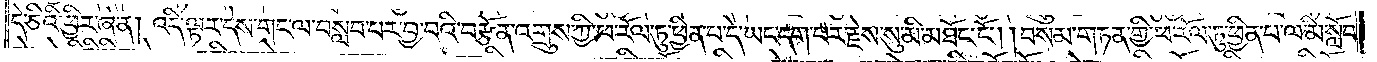དེ་ཅིའི་ཕྱིར་ཞེ་ན། འདི་ལྟར་དེས་གང་ལ་བསླབ་པར་བྱ་བའི་བརྩོན་འགྲུས་ཀྱི་ཕ་རོལ་ཏུ་ཕྱིན་པ་དེ་ཡང་དག་པར་རྗེས་སུ་མི་མཐོང་ངོ༌། །བསམ་གཏན་གྱི་ཕ་རོལ་ཏུ་ཕྱིན་པ་ལ་མི་སློབ་
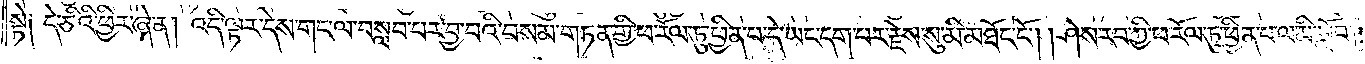སྟེ༑ དེ་ཅིའི་ཕྱིར་ཞེ་ན། འདི་ལྟར་དེས་གང་ལ་བསླབ་པར་བྱ་བའི་བསམ་གཏན་གྱི་ཕ་རོལ་ཏུ་ཕྱིན་པ་དེ་ཡང་དག་པར་རྗེས་སུ་མི་མཐོང་ངོ༌། །ཤེས་རབ་ཀྱི་ཕ་རོལ་ཏུ་ཕྱིན་པ་ལ་མི་སློབ་
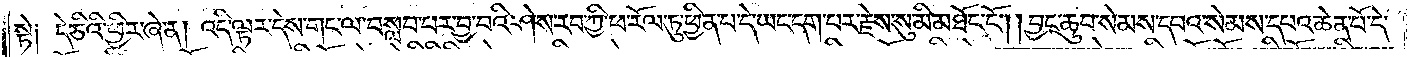སྟེ། དེ་ཅིའི་ཕྱིར་ཞེ་ན། འདི་ལྟར་དེས་གང་ལ་བསླབ་པར་བྱ་བའི་ཤེས་རབ་ཀྱི་ཕ་རོལ་ཏུ་ཕྱིན་པ་དེ་ཡང་དག་པར་རྗེས་སུ་མི་མཐོང་ངོ༌། །བྱང་ཆུབ་སེམས་དཔའ་སེམས་དཔའ་ཆེན་པོ་དེ་
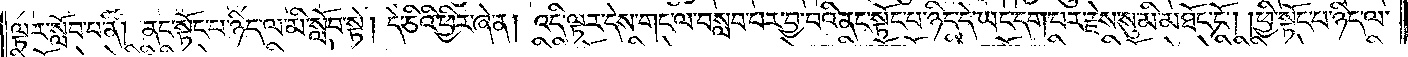ལྟར་སློབ་པ་ནི། ནང་སྟོང་པ་ཉིད་ལ་མི་སློབ་སྟེ། དེ་ཅིའི་ཕྱིར་ཞེ་ན། འདི་ལྟར་དེས་གང་ལ་བསླབ་པར་བྱ་བའི་ནང་སྟོང་པ་ཉིད་དེ་ཡང་དག་པར་རྗེས་སུ་མི་མཐོང་ངོ༌། །ཕྱི་སྟོང་པ་ཉིད་ལ་
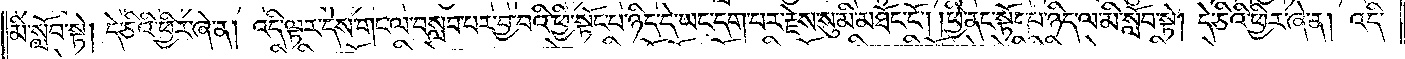མི་སློབ་སྟེ། དེ་ཅིའི་ཕྱིར་ཞེ་ན། འདི་ལྟར་དེས་གང་ལ་བསླབ་པར་བྱ་བའི་ཕྱི་སྟོང་པ་ཉིད་དེ་ཡང་དག་པར་རྗེས་སུ་མི་མཐོང་ངོ༌། །ཕྱི་ནང་སྟོང་པ་ཉིད་ལ་མི་སློབ་སྟེ། དེ་ཅིའི་ཕྱིར་ཞེ་ན། འདི་
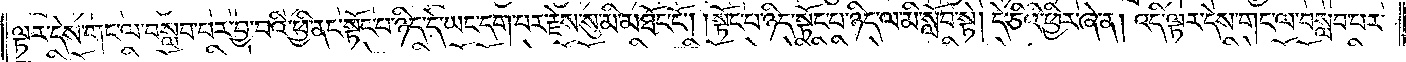ལྟར་དེས་གང་ལ་བསླབ་པར་བྱ་བའི་ཕྱི་ནང་སྟོང་པ་ཉིད་དེ་ཡང་དག་པར་རྗེས་སུ་མི་མཐོང་ངོ༌། །སྟོང་པ་ཉིད་སྟོང་པ་ཉིད་ལ་མི་སློབ་སྟེ། དེ་ཅིའི་ཕྱིར་ཞེ་ན། འདི་ལྟར་དེས་གང་ལ་བསླབ་པར་
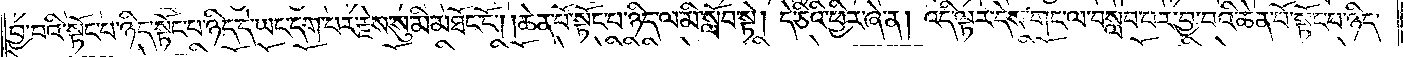བྱ་བའི་སྟོང་པ་ཉིད་སྟོང་པ་ཉིད་དེ་ཡང་དག་པར་རྗེས་སུ་མི་མཐོང་ངོ༌། །ཆེན་པོ་སྟོང་པ་ཉིད་ལ་མི་སློབ་སྟེ། དེ་ཅིའི་ཕྱིར་ཞེ་ན། འདི་ལྟར་དེས་གང་ལ་བསླབ་པར་བྱ་བའི་ཆེན་པོ་སྟོང་པ་ཉིད་
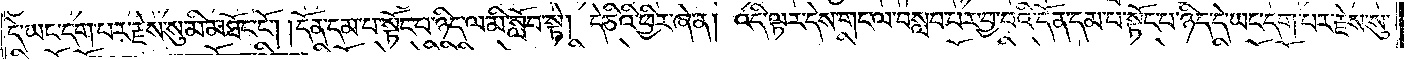དེ་ཡང་དག་པར་རྗེས་སུ་མི་མཐོང་ངོ༌། །དོན་དམ་པ་སྟོང་པ་ཉིད་ལ་མི་སློབ་སྟེ། དེ་ཅིའི་ཕྱིར་ཞེ་ན། འདི་ལྟར་དེས་གང་ལ་བསླབ་པར་བྱ་བའི་དོན་དམ་པ་སྟོང་པ་ཉིད་དེ་ཡང་དག་པར་རྗེས་སུ་
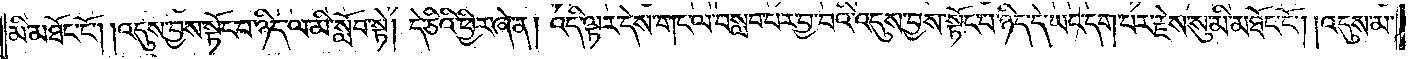མི་མཐོང་ངོ༌། །འདུས་བྱས་སྟོང་པ་ཉིད་ལ་མི་སློབ་སྟེ། དེ་ཅིའི་ཕྱིར་ཞེ་ན། འདི་ལྟར་དེས་གང་ལ་བསླབ་པར་བྱ་བའི་འདུས་བྱས་སྟོང་པ་ཉིད་དེ་ཡང་དག་པར་རྗེས་སུ་མི་མཐོང་ངོ༌། །འདུས་མ་
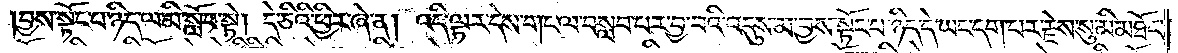བྱས་སྟོང་པ་ཉིད་ལ་མི་སློབ་སྟེ། དེ་ཅིའི་ཕྱིར་ཞེ་ན། འདི་ལྟར་དེས་གང་ལ་བསླབ་པར་བྱ་བའི་འདུས་མ་བྱས་སྟོང་པ་ཉིད་དེ་ཡང་དག་པར་རྗེས་སུ་མི་མཐོང་
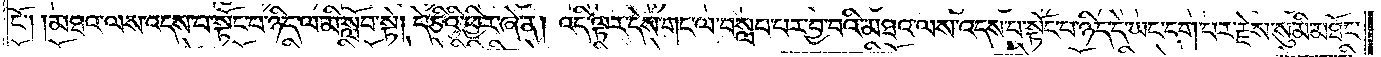ངོ༌། །མཐའ་ལས་འདས་པ་སྟོང་པ་ཉིད་ལ་མི་སློབ་སྟེ། དེ་ཅིའི་ཕྱིར་ཞེ་ན། འདི་ལྟར་དེས་གང་ལ་བསླབ་པར་བྱ་བའི་མཐའ་ལས་འདས་པ་སྟོང་པ་ཉིད་དེ་ཡང་དག་པར་རྗེས་སུ་མི་མཐོང་
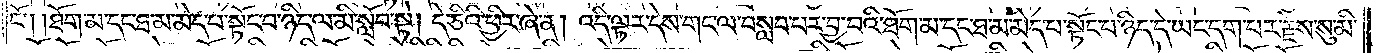ངོ༌། །ཐོག་མ་དང་ཐ་མ་མེད་པ་སྟོང་པ་ཉིད་ལ་མི་སློབ་སྟེ། དེ་ཅིའི་ཕྱིར་ཞེ་ན། འདི་ལྟར་དེས་གང་ལ་བསླབ་པར་བྱ་བའི་ཐོག་མ་དང་ཐ་མ་མེད་པ་སྟོང་པ་ཉིད་དེ་ཡང་དག་པར་རྗེས་སུ་མི་
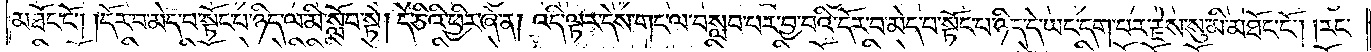མཐོང་ངོ༌། །དོར་བ་མེད་པ་སྟོང་པ་ཉིད་ལ་མི་སློབ་སྟེ། དེ་ཅིའི་ཕྱིར་ཞེ་ན། འདི་ལྟར་དེས་གང་ལ་བསླབ་པར་བྱ་བའི་དོར་བ་མེད་པ་སྟོང་པ་ཉིད་དེ་ཡང་དག་པར་རྗེས་སུ་མི་མཐོང་ངོ༌། །རང་
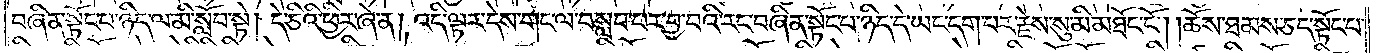བཞིན་སྟོང་པ་ཉིད་ལ་མི་སློབ་སྟེ། དེ་ཅིའི་ཕྱིར་ཞེ་ན། འདི་ལྟར་དེས་གང་ལ་བསླབ་པར་བྱ་བའི་རང་བཞིན་སྟོང་པ་ཉིད་དེ་ཡང་དག་པར་རྗེས་སུ་མི་མཐོང་ངོ༌། །ཆོས་ཐམས་ཅད་སྟོང་པ་
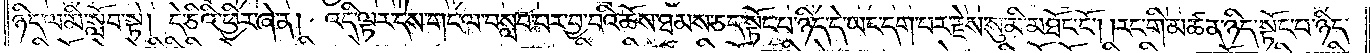ཉིད་ལ་མི་སློབ་སྟེ། དེ་ཅིའི་ཕྱིར་ཞེ་ན། འདི་ལྟར་དེས་གང་ལ་བསླབ་པར་བྱ་བའི་ཆོས་ཐམས་ཅད་སྟོང་པ་ཉིད་དེ་ཡང་དག་པར་རྗེས་སུ་མི་མཐོང་ངོ༌། །རང་གི་མཚན་ཉིད་སྟོང་པ་ཉིད་
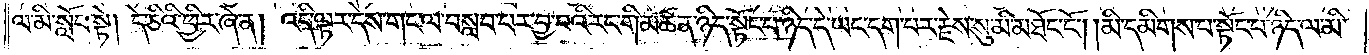ལ་མི་སློབ་སྟེ། དེ་ཅིའི་ཕྱིར་ཞེ་ན། འདི་ལྟར་དེས་གང་ལ་བསླབ་པར་བྱ་བའི་རང་གི་མཚན་ཉིད་སྟོང་པ་ཉིད་དེ་ཡང་དག་པར་རྗེས་སུ་མི་མཐོང་ངོ༌། །མི་དམིགས་པ་སྟོང་པ་ཉིད་ལ་མི་
